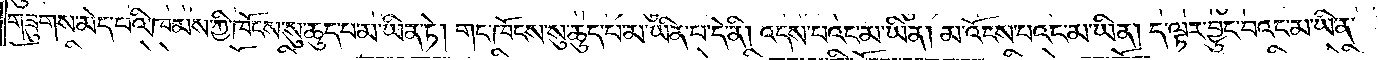གཟུགས་མེད་པའི་ཁམས་ཀྱི་ཁོངས་སུ་ཆུད་པ་མ་ཡིན་ཏེ། གང་ཁོངས་སུ་ཆུད་པ་མ་ཡིན་པ་དེ་ནི། འདས་པའང་མ་ཡིན། མ་འོངས་པའང་མ་ཡིན། ད་ལྟར་བྱུང་བའང་མ་ཡིན་
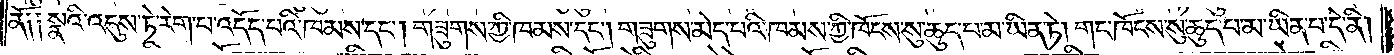ནོ༑ ༑སྣའི་འདུས་ཏེ་རེག་པ་འདོད་པའི་ཁམས་དང༌། གཟུགས་ཀྱི་ཁམས་དང༌། གཟུགས་མེད་པའི་ཁམས་ཀྱི་ཁོངས་སུ་ཆུད་པ་མ་ཡིན་ཏེ། གང་ཁོངས་སུ་ཆུད་པ་མ་ཡིན་པ་དེ་ནི།
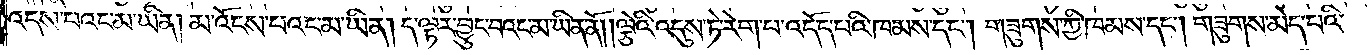འདས་པའང་མ་ཡིན། མ་འོངས་པའང་མ་ཡིན། ད་ལྟར་བྱུང་བའང་མ་ཡིན་ནོ། །ལྕེའི་འདུས་ཏེ་རེག་པ་འདོད་པའི་ཁམས་དང༌། གཟུགས་ཀྱི་ཁམས་དང༌། གཟུགས་མེད་པའི་
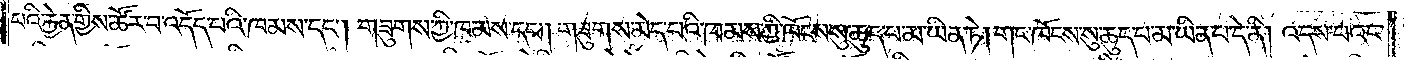པའི་རྐྱེན་གྱིས་ཚོར་བ་འདོད་པའི་ཁམས་དང༌། གཟུགས་ཀྱི་ཁམས་དང༌། གཟུགས་མེད་པའི་ཁམས་ཀྱི་ཁོངས་སུ་ཆུད་པ་མ་ཡིན་ཏེ། གང་ཁོངས་སུ་ཆུད་པ་མ་ཡིན་པ་དེ་ནི། འདས་པའང་
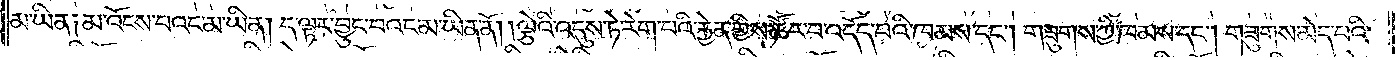མ་ཡིན༑ མ་འོངས་པའང་མ་ཡིན། ད་ལྟར་བྱུང་བའང་མ་ཡིན་ནོ། །ལྕེའི་འདུས་ཏེ་རེག་པའི་རྐྱེན་གྱིས་ཚོར་བ་འདོད་པའི་ཁམས་དང༌། གཟུགས་ཀྱི་ཁམས་དང༌། གཟུགས་མེད་པའི་
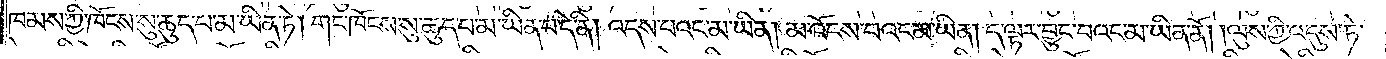ཁམས་ཀྱི་ཁོངས་སུ་ཆུད་པ་མ་ཡིན་ཏེ། གང་ཁོངས་སུ་ཆུད་པ་མ་ཡིན་པ་དེ་ནི། འདས་པའང་མ་ཡིན། མ་འོངས་པའང་མ་ཡིན། ད་ལྟར་བྱུང་བའང་མ་ཡིན་ནོ། །ལུས་ཀྱི་འདུས་ཏེ་
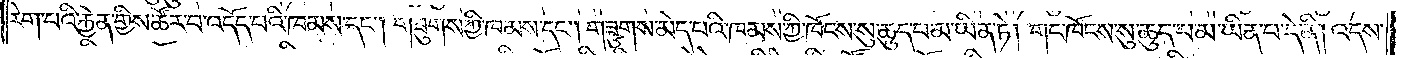རེག་པའི་རྐྱེན་གྱིས་ཚོར་བ་འདོད་པའི་ཁམས་དང༌། གཟུགས་ཀྱི་ཁམས་དང༌། གཟུགས་མེད་པའི་ཁམས་ཀྱི་ཁོངས་སུ་ཆུད་པ་མ་ཡིན་ཏེ། གང་ཁོངས་སུ་ཆུད་པ་མ་ཡིན་པ་དེ་ནི། འདས་
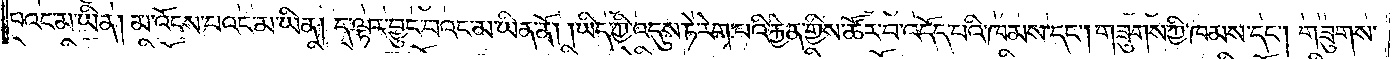པའང་མ་ཡིན། མ་འོངས་པའང་མ་ཡིན། ད་ལྟར་བྱུང་པའང་མ་ཡིན་ནོ། །ཡིད་ཀྱི་འདུས་ཏེ་རེག་པའི་རྐྱེན་གྱིས་ཚོར་བ་འདོད་པའི་ཁམས་དང༌། གཟུགས་ཀྱི་ཁམས་དང༌། གཟུགས་
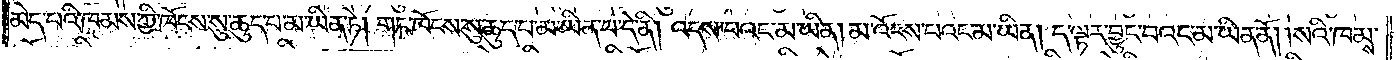མེད་པའི་ཁམས་ཀྱི་ཁོངས་སུ་ཆུད་པ་མ་ཡིན་ཏེ། གང་ཁོངས་སུ་ཆུད་པ་མ་ཡིན་པ་དེ་ནི། འདས་པའང་མ་ཡིན། མ་འོངས་པའང་མ་ཡིན། ད་ལྟར་བྱུང་བའང་མ་ཡིན་ནོ། །སའི་ཁམས་
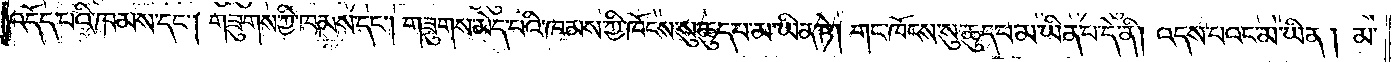འདོད་པའི་ཁམས་དང༌། གཟུགས་ཀྱི་ཁམས་དང༌། གཟུགས་མེད་པའི་ཁམས་ཀྱི་ཁོངས་སུ་ཆུད་པ་མ་ཡིན་ཏེ། གང་ཁོངས་སུ་ཆུད་པ་མ་ཡིན་པ་དེ་ནི། འདས་པའང་མ་ཡིན། མ་
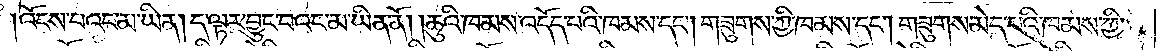འོངས་པའང་མ་ཡིན། ད་ལྟར་བྱུང་བའང་མ་ཡིན་ནོ། །ཆུའི་ཁམས་འདོད་པའི་ཁམས་དང༌། གཟུགས་ཀྱི་ཁམས་དང༌། གཟུགས་མེད་པའི་ཁམས་ཀྱི་
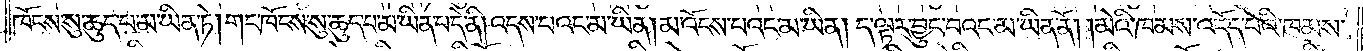ཁོངས་སུ་ཆུད་པ་མ་ཡིན་ཏེ། གང་ཁོངས་སུ་ཆུད་པ་མ་ཡིན་པ་དེ་ནི། འདས་པའང་མ་ཡིན། མ་འོངས་པའང་མ་ཡིན། ད་ལྟར་བྱུང་བའང་མ་ཡིན་ནོ། །མེའི་ཁམས་འདོད་པའི་ཁམས་
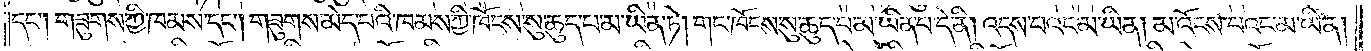དང༌། གཟུགས་ཀྱི་ཁམས་དང༌། གཟུགས་མེད་པའི་ཁམས་ཀྱི་ཁོངས་སུ་ཆུད་པ་མ་ཡིན་ཏེ། གང་ཁོངས་སུ་ཆུད་པ་མ་ཡིན་པ་དེ་ནི། འདས་པའང་མ་ཡིན། མ་འོངས་པའང་མ་ཡིན།
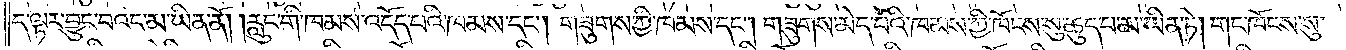ད་ལྟར་བྱུང་བའང་མ་ཡིན་ནོ། །རླུང་གི་ཁམས་འདོད་པའི་ཁམས་དང༌། གཟུགས་ཀྱི་ཁམས་དང༌། གཟུགས་མེད་པའི་ཁམས་ཀྱི་ཁོངས་སུ་ཆུད་པ་མ་ཡིན་ཏེ། གང་ཁོངས་སུ་
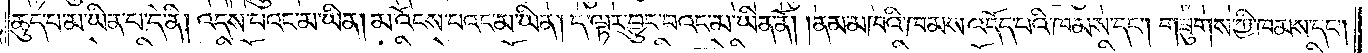ཆུད་པ་མ་ཡིན་པ་དེ་ནི། འདས་པའང་མ་ཡིན། མ་འོངས་པའང་མ་ཡིན། ད་ལྟར་བྱུང་བའང་མ་ཡིན་ནོ། །ནམ་མཁའི་ཁམས་འདོད་པའི་ཁམས་དང༌། གཟུགས་ཀྱི་ཁམས་དང༌།
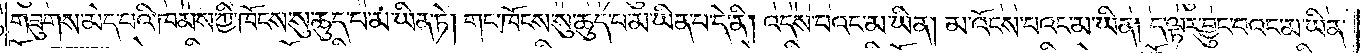གཟུགས་མེད་པའི་ཁམས་ཀྱི་ཁོངས་སུ་ཆུད་པ་མ་ཡིན་ཏེ། གང་ཁོངས་སུ་ཆུད་པ་མ་ཡིན་པ་དེ་ནི། འདས་བའང་མ་ཡིན། མ་འོངས་པའང་མ་ཡིན། ད་ལྟར་བྱུང་བའང་མ་ཡིན་
